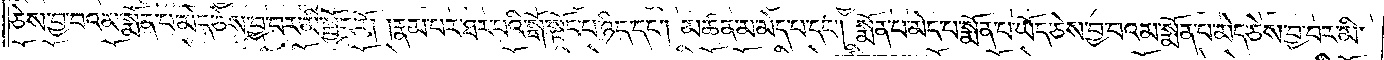ཅེས་བྱ་བའམ་སྨོན་པ་མེད་ཅེས་བྱ་བར་མི་སྦྱོར་རོ། །རྣམ་པར་ཐར་པའི་སྒོ་སྟོང་པ་ཉིད་དང༌། མཚན་མ་མེད་པ་དང༌། སྨོན་པ་མེད་པ་སྨོན་པ་ཡོད་ཅེས་བྱ་བའམ་སྨོན་པ་མེད་ཅེས་བྱ་བར་མི་
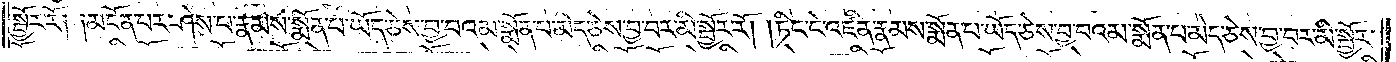སྦྱོར་རོ༑ ༑མངོན་པར་ཤེས་པ་རྣམས་སྨོན་པ་ཡོད་ཅེས་བྱ་བའམ་སྨོན་པ་མེད་ཅེས་བྱ་བར་མི་སྦྱོར་རོ། །ཏིང་ངེ་འཛིན་རྣམས་སྨོན་པ་ཡོད་ཅེས་བྱ་བའམ་སྨོན་པ་མེད་ཅེས་བྱ་བར་མི་སྦྱོར་
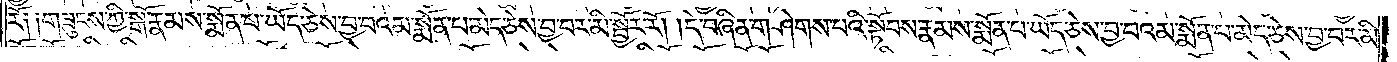རོ༑ ༑གཟུངས་ཀྱི་སྒོ་རྣམས་སྨོན་པ་ཡོད་ཅེས་བྱ་བའམ་སྨོན་པ་མེད་ཅེས་བྱ་བར་མི་སྦྱོར་རོ། །དེ་བཞིན་གཤེགས་པའི་སྟོབས་རྣམས་སྨོན་པ་ཡོད་ཅེས་བྱ་བའམ་སྨོན་པ་མེད་ཅེས་བྱ་བར་མི་
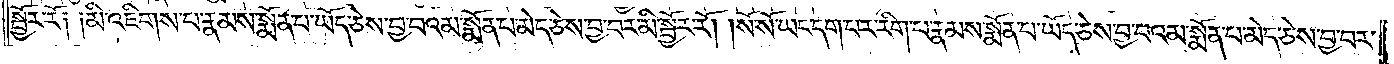སྦྱོར་རོ༑ ༑མི་འཇིགས་པ་རྣམས་སྨོན་པ་ཡོད་ཅེས་བྱ་བའམ་སྨོན་པ་མེད་ཅེས་བྱ་བར་མི་སྦྱོར་རོ། །སོ་སོ་ཡང་དག་པར་རིག་པ་རྣམས་སྨོན་པ་ཡོད་ཅེས་བྱ་བའམ་སྨོན་པ་མེད་ཅེས་བྱ་བར་
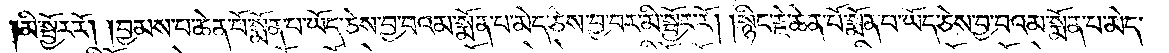མི་སྦྱོར་རོ། །བྱམས་པ་ཆེན་པོ་སྨོན་པ་ཡོད་ཅེས་བྱ་བའམ་སྨོན་པ་མེད་ཅེས་བྱ་བར་མི་སྦྱོར་རོ། །སྙིང་རྗེ་ཆེན་པོ་སྨོན་པ་ཡོད་ཅེས་བྱ་བའམ་སྨོན་པ་མེད་
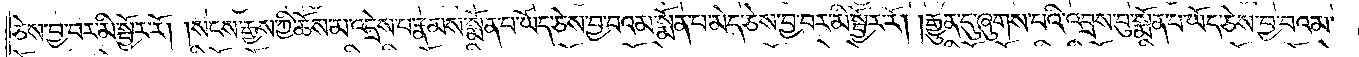ཅེས་བྱ་བར་མི་སྦྱོར་རོ། །སངས་རྒྱས་ཀྱི་ཆོས་མ་འདྲེས་པ་རྣམས་སྨོན་པ་ཡོད་ཅེས་བྱ་བའམ་སྨོན་པ་མེད་ཅེས་བྱ་བར་མི་སྦྱོར་རོ། །རྒྱུན་དུ་ཞུགས་པའི་འབྲས་བུ་སྨོན་པ་ཡོད་ཅེས་བྱ་བའམ་
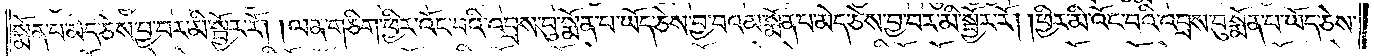སྨོན་པ་མེད་ཅེས་བྱ་བར་མི་སྦྱོར་རོ། །ལན་གཅིག་ཕྱིར་འོང་བའི་འབྲས་བུ་སྨོན་པ་ཡོད་ཅེས་བྱ་བའམ་སྨོན་པ་མེད་ཅེས་བྱ་བར་མི་སྦྱོར་རོ། །ཕྱིར་མི་འོང་བའི་འབྲས་བུ་སྨོན་པ་ཡོད་ཅེས་
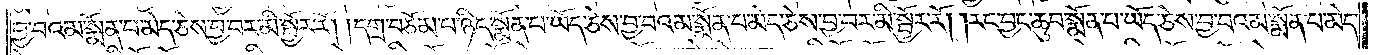བྱ་བའམ་སྨོན་པ་མེད་ཅེས་བྱ་བར་མི་སྦྱོར་རོ། །དགྲ་བཅོམ་པ་ཉིད་སྨོན་པ་ཡོད་ཅེས་བྱ་བའམ་སྨོན་པ་མེད་ཅེས་བྱ་བར་མི་སྦྱོར་རོ། །རང་བྱང་ཆུབ་སྨོན་པ་ཡོད་ཅེས་བྱ་བའམ་སྨོན་པ་མེད་
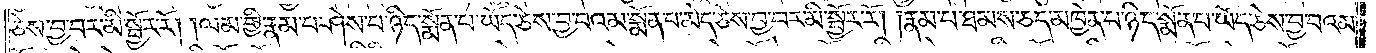ཅེས་བྱ་བར་མི་སྦྱོར་རོ། །ལམ་གྱི་རྣམ་པ་ཤེས་པ་ཉིད་སྨོན་པ་ཡོད་ཅེས་བྱ་བའམ་སྨོན་པ་མེད་ཅེས་བྱ་བར་མི་སྦྱོར་རོ། །རྣམ་པ་ཐམས་ཅད་མཁྱེན་པ་ཉིད་སྨོན་པ་ཡོད་ཅེས་བྱ་བའམ་
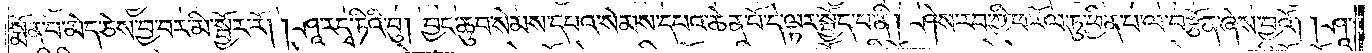སྨོན་པ་མེད་ཅེས་བྱ་བར་མི་སྦྱོར་རོ། །ཤཱ་ར་དྭ་ཏིའི་བུ། བྱང་ཆུབ་སེམས་དཔའ་སེམས་དཔའ་ཆེན་པོ་དེ་ལྟར་སྤྱོད་པ་ནི། ཤེས་རབ་ཀྱི་ཕ་རོལ་ཏུ་ཕྱིན་པ་ལ་བརྩོན་ཞེས་བྱའོ། །ཤཱ་
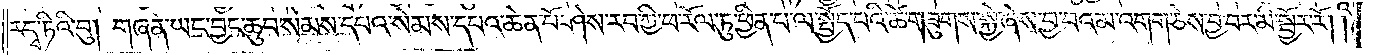ར་དྭ་ཏིའི་བུ། གཞན་ཡང་བྱང་ཆུབ་སེམས་དཔའ་སེམས་དཔའ་ཆེན་པོ་ཤེས་རབ་ཀྱི་ཕ་རོལ་ཏུ་ཕྱིན་པ་ལ་སྤྱོད་པའི་ཚེ་གཟུགས་སྐྱེ་ཞེས་བྱ་བའམ་འགག་ཅེས་བྱ་བར་མི་སྦྱོར་རོ། །
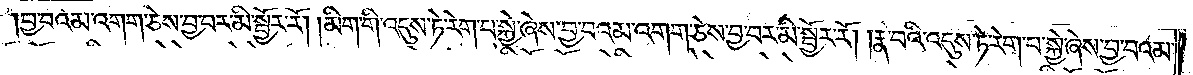བྱ་བའམ་འགག་ཅེས་བྱ་བར་མི་སྦྱོར་རོ། །མིག་གི་འདུས་ཏེ་རེག་པ་སྐྱེ་ཞེས་བྱ་བའམ་འགག་ཅེས་བྱ་བར་མི་སྦྱོར་རོ། །རྣ་བའི་འདུས་ཏེ་རེག་པ་སྐྱེ་ཞེས་བྱ་བའམ་
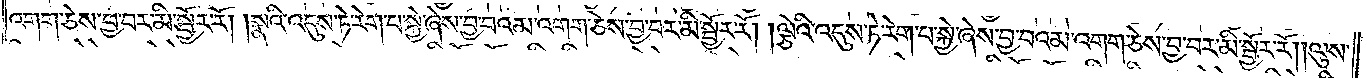འགག་ཅེས་བྱ་བར་མི་སྦྱོར་རོ། །སྣའི་འདུས་ཏེ་རེག་པ་སྐྱེ་ཞེས་བྱ་བའམ་འགག་ཅེས་བྱ་བར་མི་སྦྱོར་རོ། །ལྕེའི་འདུས་ཏེ་རེག་པ་སྐྱེ་ཞེས་བྱ་བའམ་འགག་ཅེས་བྱ་བར་མི་སྦྱོར་རོ། །ལུས་
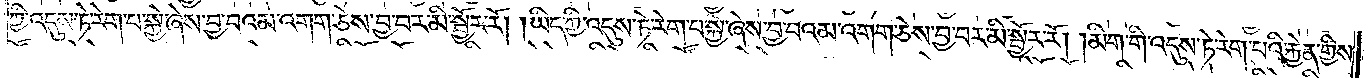ཀྱི་འདུས་ཏེ་རེག་པ་སྐྱེ་ཞེས་བྱ་བའམ་འགག་ཅེས་བྱ་བར་མི་སྦྱོར་རོ། །ཡིད་ཀྱི་འདུས་ཏེ་རེག་པ་སྐྱེ་ཞེས་བྱ་བའམ་འགག་ཅེས་བྱ་བར་མི་སྦྱོར་རོ། །མིག་གི་འདུས་ཏེ་རེག་པའི་རྐྱེན་གྱིས་
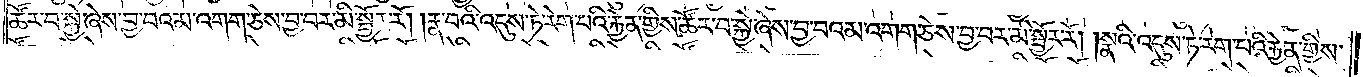ཚོར་བ་སྐྱེ་ཞེས་བྱ་བའམ་འགག་ཅེས་བྱ་བར་མི་སྦྱོར་རོ། །རྣ་བའི་འདུས་ཏེ་རེག་པའི་རྐྱེན་གྱིས་ཚོར་བ་སྐྱེ་ཞེས་བྱ་བའམ་འགག་ཅེས་བྱ་བར་མི་སྦྱོར་རོ། །སྣའི་འདུས་ཏེ་རེག་པའི་རྐྱེན་གྱིས་
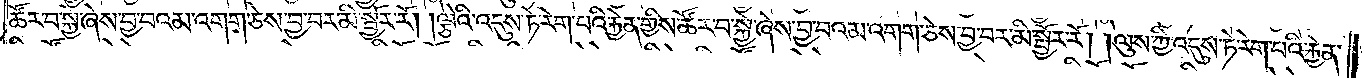ཚོར་བ་སྐྱེ་ཞེས་བྱ་བའམ་འགག་ཅེས་བྱ་བར་མི་སྦྱོར་རོ། །ལྕེའི་འདུས་ཏེ་རེག་པའི་རྐྱེན་གྱིས་ཚོར་བ་སྐྱེ་ཞེས་བྱ་བའམ་འགག་ཅེས་བྱ་བར་མི་སྦྱོར་རོ། །ལུས་ཀྱི་འདུས་ཏེ་རེག་པའི་རྐྱེན་
